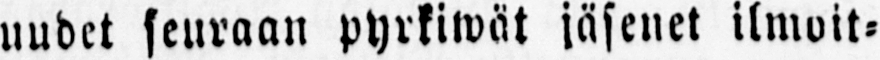uudet seuraan pyrkiwät jäsenet ilmoit-
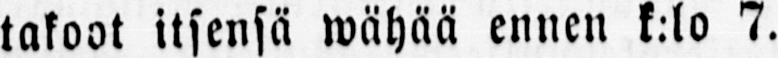takoot itsensä wähää ennen k:lo 7.
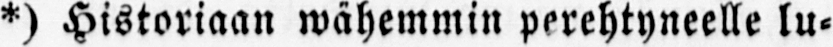*) Historiaan wähemmin perehtyneelle lu-
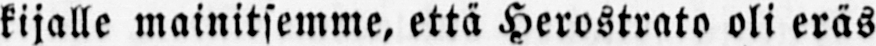kijalle mainitsemme, että Herostrato oli eräs
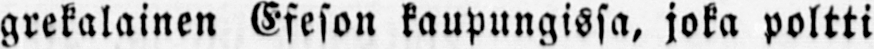grekalainen Efeson kaupungissa, joka poltti
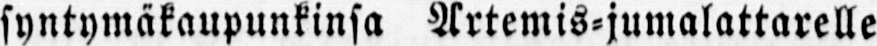syntymäkaupunkinsa Artemis-jumalattarelle
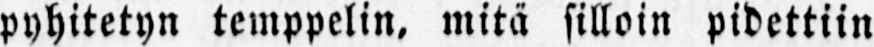pyhitetyn temppelin, mitä silloin pidettiin
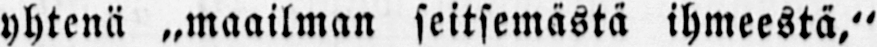yhtenä ˶maailman seitsemästä ihmeestä,"
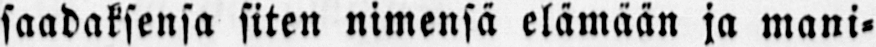saadaksensa siten nimensä elämään ja mani-
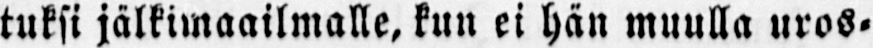tuksi jälkimaailmalle, kun ei hän muulla uros-
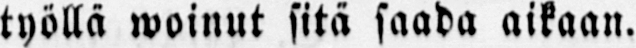työllä woinut sitä saada aikaan.
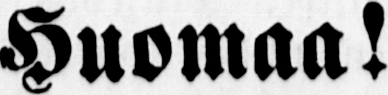!Huomaa!
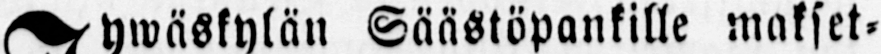Jywäskylän Säästöpankille makset-
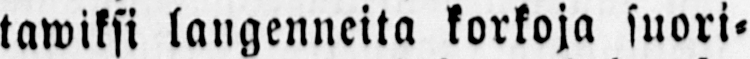tawiksi langenneita korkoja suori-
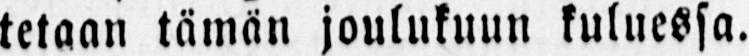tetaan tämän joulukuun kuluessa.
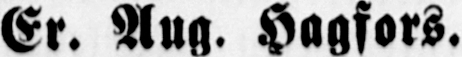Er. Aug. Hagfors.
